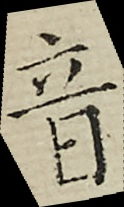音
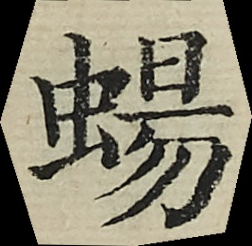蝪
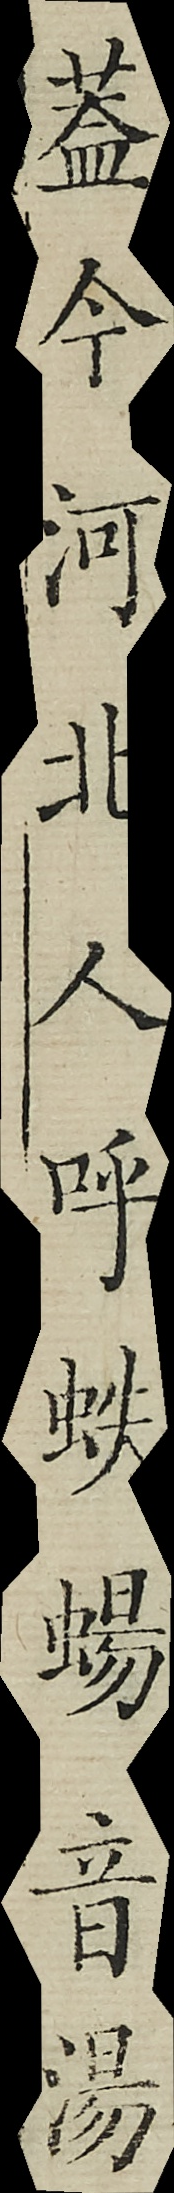蓋今河北人呼蛈蝪音湯
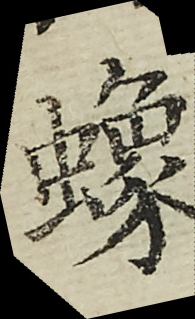蟓
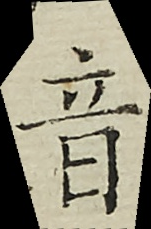音
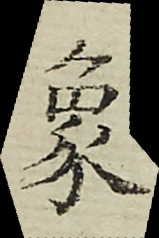象
